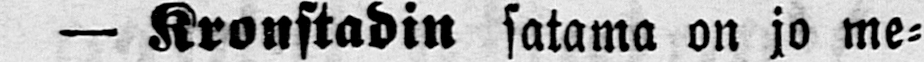— Kronstadin satama on jo me-
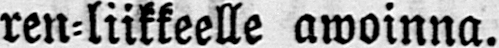ren-liikkeelle awoinna.
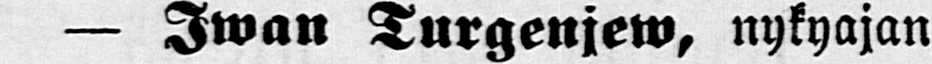— Iwan Turgenjew, nykyajan
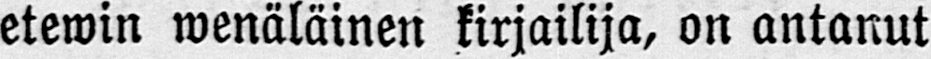etewin wenäläinen kirjailija, on antanut
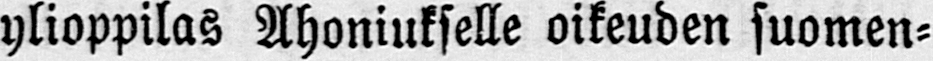ylioppilas Ahoniukselle oikeuden suomen-
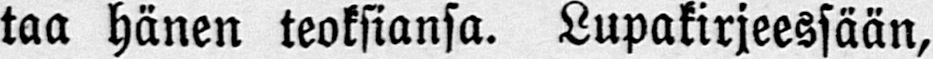taa hänen teoksiansa. Lupakirjeessään,
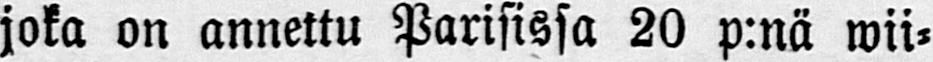joka on annettu Parisissa 20 p:nä wii-
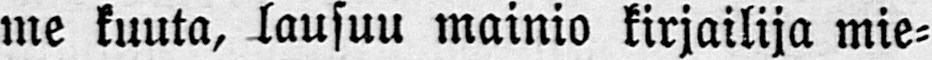me kuuta, lausuu mainio kirjailija mie-
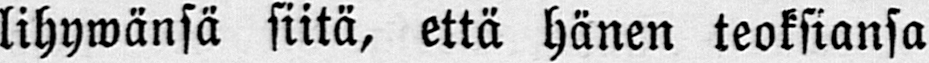lihywänsä siitä, että hänen teoksiansa
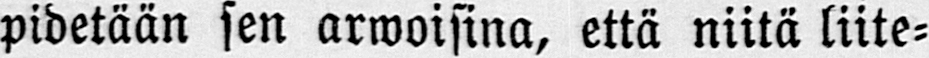pidetään sen arwoisina, että niitä liite-
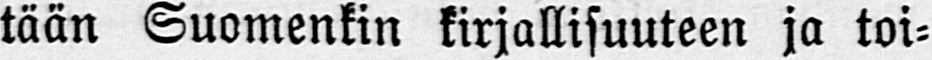tään Suomenkin kirjallisuuteen ja toi-
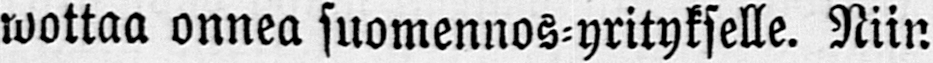wottaa onnea suomennos-yritykselle. Niin
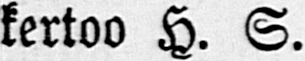kertoo H. S.
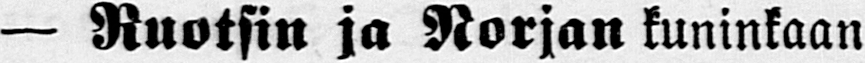— Ruotsin ja Norjan kuninkaan
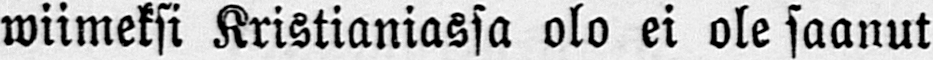wiimeksi Kristianiassa olo ei ole saanut
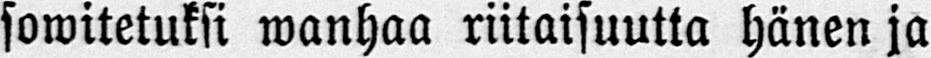sowitetuksi wanhaa riitaisuutta hänen ja
